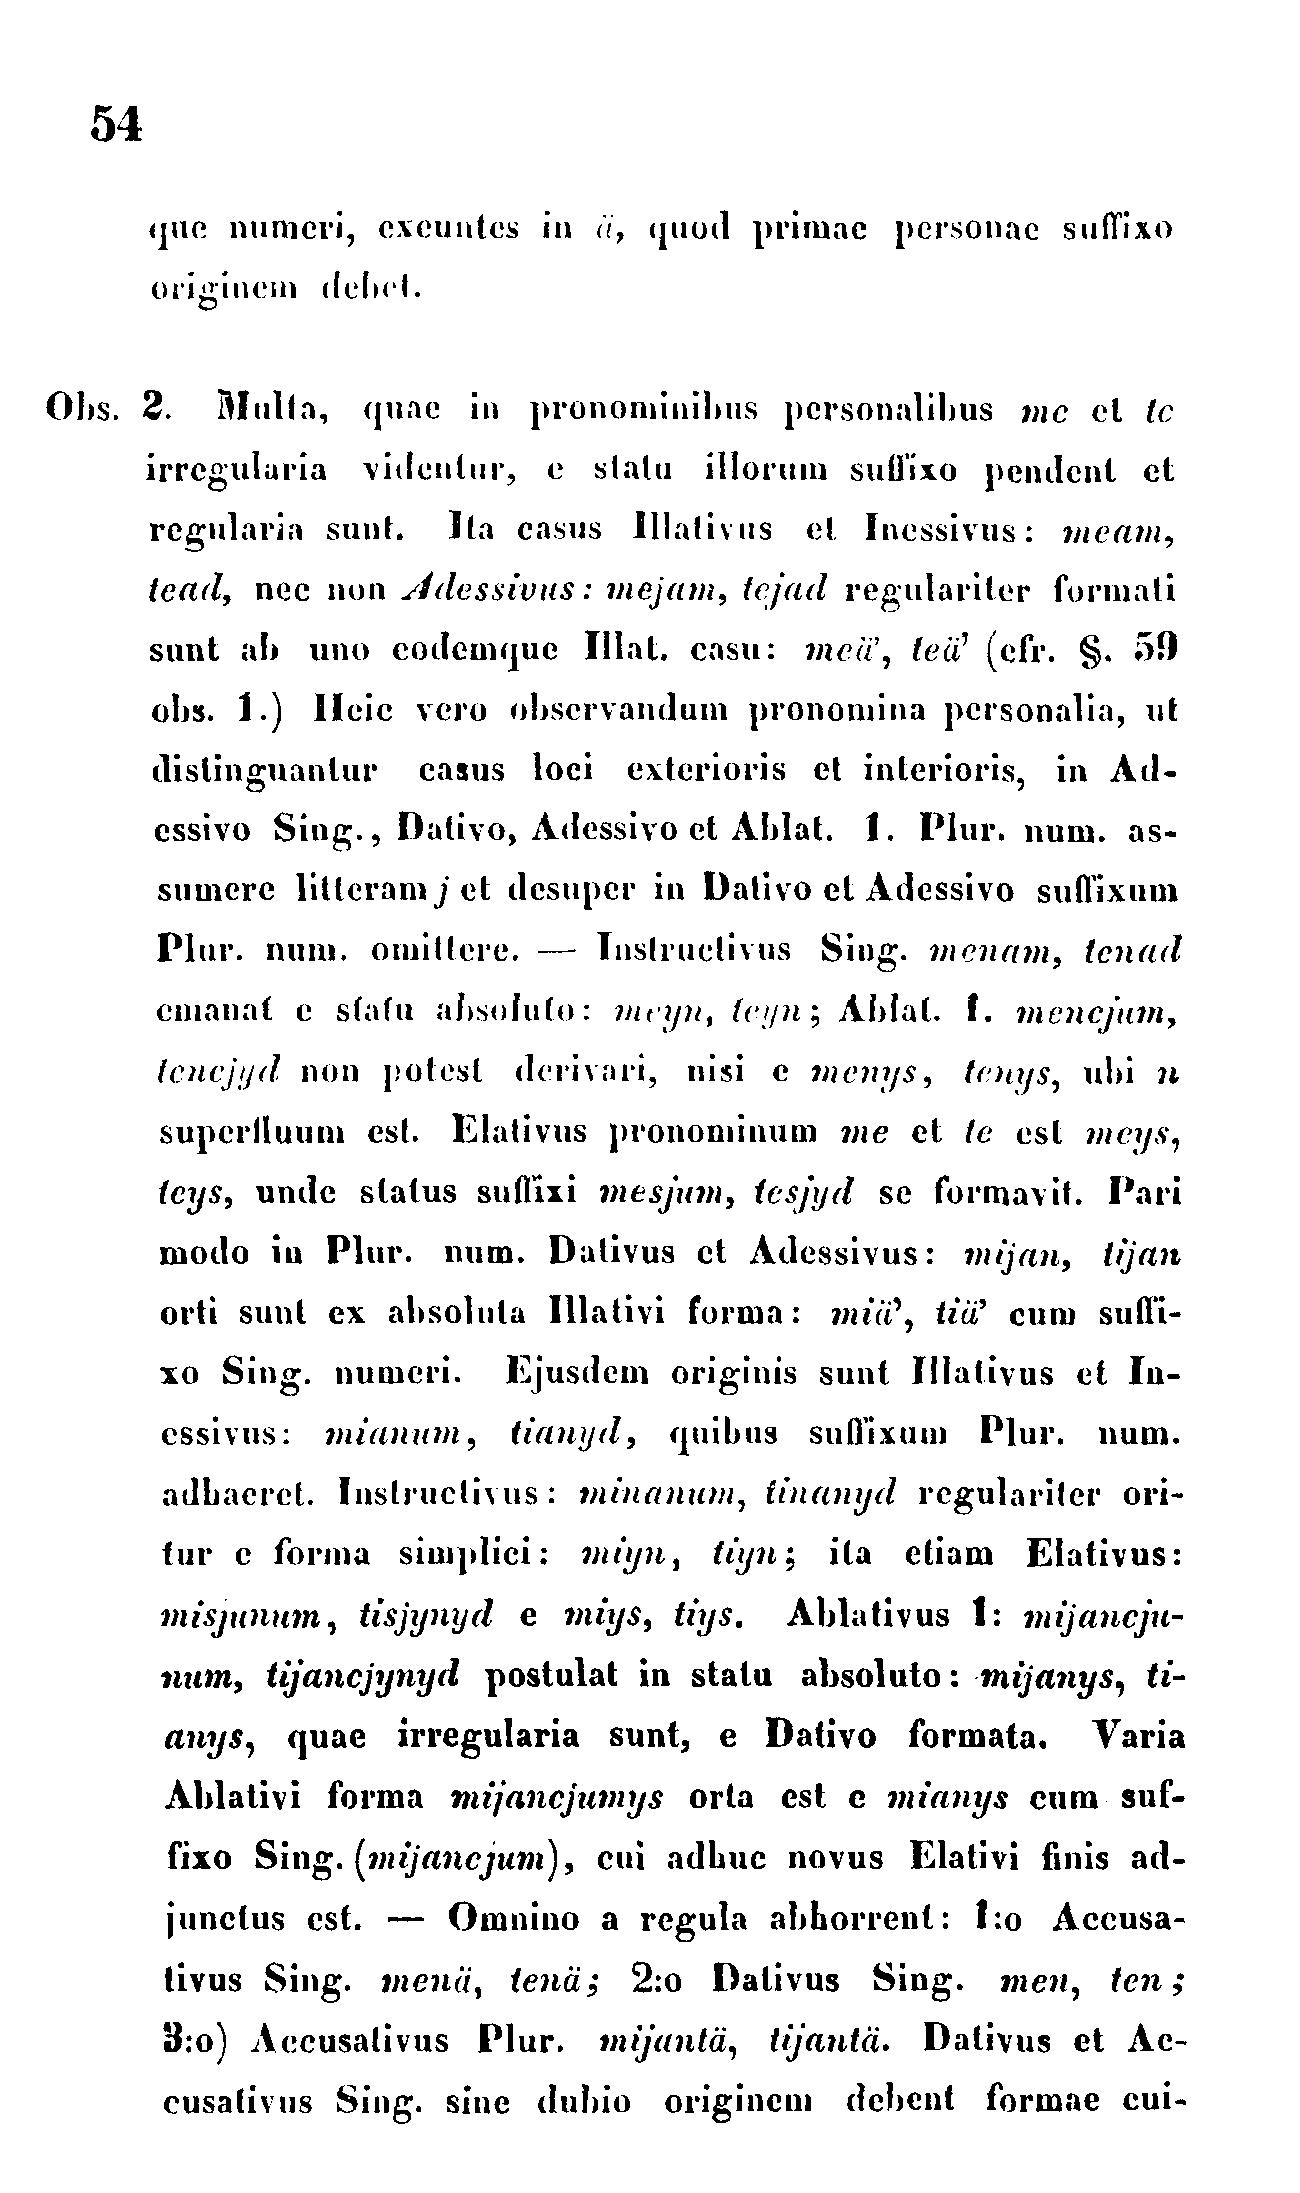54
que numeri, exeuntes in ä, quod primae personae suffixo
originem debet.
Obs. 2. Multa, quae in pronominibus personalibus me et te
irregularia videntur, e statu illorum sussixo pendent et
regularia sunt. Ita casus Illativus et Inessivus: meam,
tead, nec non Adessivus : mejam, tejad regulariter formati
sunt ab uno codemque Illat. casu: meä', teä' (efr. §. 59
obs. 1.) Heic vero observandum pronomina personalia, ut
distinguantur casus loci exterioris et interioris, in Ad-
essivo Sing., Dativo, Adessivo et Ablat. 1. Plur. num. as-
sumere litteram j et desuper in Dativo et Adessivo suffixum
Plur. num. omittere. — Instructivus Sing. menam, tenad
emanat e statu absoluto: meyn, teyn; Ablat. 1. mencjum,
tencjyd non potest derivari, nisi e menys, tonys, ubi n
superfluum est. Elativus pronominum me et te est meys,
teys, unde status suffixi mesjum, tesjyd se formavit. Pari
modo in Plur. num. Dativus et Adessivus: mijan, tijan
orti sunt ex absoluta Illativi forma: miä', tiä' cum suffi-
xo Sing. numeri. Ejusdem originis sunt Illativus et In-
essivus: mianum, tianyd, quibus suffixum Plur. num.
adbaeret. Instructivus: minanum, tinanyd regulariter ori-
tur e forma simplici: miyn, tiyn; ita etiam Elativus:
misjunum, tisjynyd e miys, tiys. Ablativus 1: mijancju-
num, tijancjynyd postulat in statu absoluto: mijanys, ti-
anys, quae irregularia sunt, e Dativo formata. Varia
Ablativi forma mijancjumys orta est e mianys cum suf-
fixo Sing. (mijancjum), cui adhuc novus Elativi finis ad-
junctus est. — Omnino a regula abhorrent: 1:o Accusa-
tivus Sing. menä, tenä; 2:o Dativus Sing. men, ten;
3:o) Accusalivus Plur. mijantä, tijantä. Dativus et Ac-
cusativus Sing. sine dubio originem debent formae cui-
